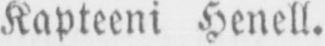Kapteeni Henell.
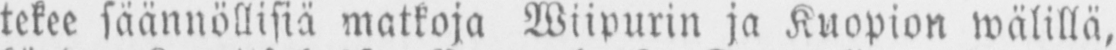tekee säännöllisiä matkoja Wiipurin ja Kuopion wälillä,
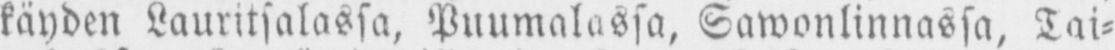käyden Lauritsalassa, Puumalassa, Sawonlinnassa, Tai-
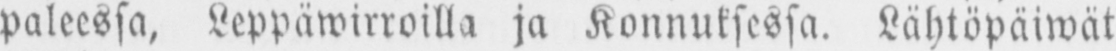paleessa, Leppäwirroilla ja Kannuksessa. Lähtöpäiwät
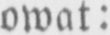owat:
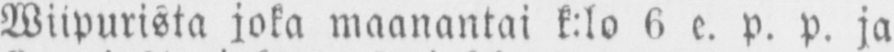Wiipurista joka maanantai k:lo 6 e. p. ja
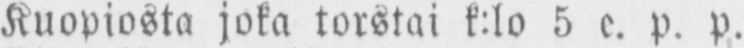Kuopiosta joka torstai k:lo 5 e. p. p.
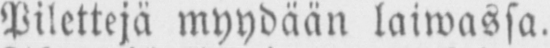Pilettejä myydään laiwassa.
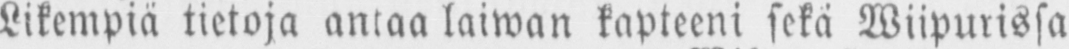Likempiä tietoja antaa laiwan kapteeni sekä Wiipurissa
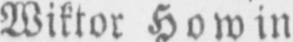Wiktor Howing.
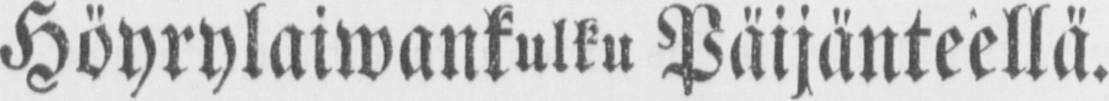Höyrylaiwankulku Päijänteellä.
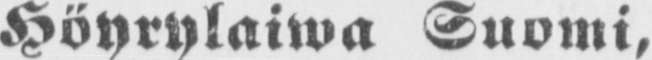Höyrylaiwa Suomi,
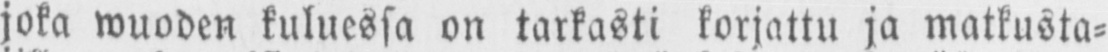joka wuoden kuluessa on tarkasti korjattu ja matkusta-
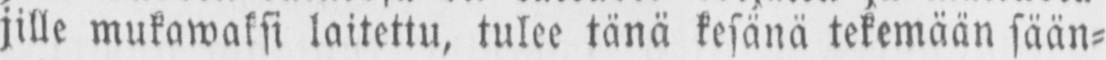jille mukawaksi laitettu, tulee tänä kesänä tekemään sään-
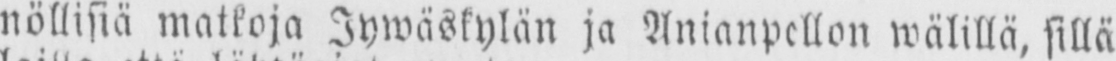nöllisiä matkoja Jymäslylän ja Anianpellon wälillä, sillä
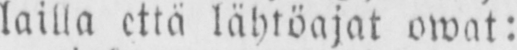lailla että lähtöajat omat:
